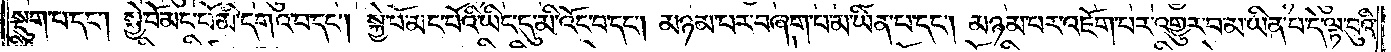སྡུག་པ་དང༌། སྐྱེ་བོ་མང་པོ་མི་དགའ་བ་དང༌། སྐྱེ་བོ་མང་པོའི་ཡིད་དུ་མི་འོང་བ་དང༌། མཉམ་པར་བཞག་པ་མ་ཡིན་པ་དང༌། མཉམ་པར་འཇོག་པར་འགྱུར་བ་མ་ཡིན་པ་དེ་ལྟ་བུའི་
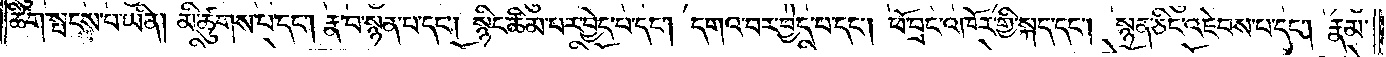ཚིག་སྤངས་པ་ཡིན། མི་ཚུགས་པ་དང༌། རྣ་བ་སྙན་པ་དང༌། སྙིང་ཚིམ་པར་བྱེད་པ་དང༌། དགའ་བར་བྱེད་པ་དང༌། ཕོ་བྲང་འཁོར་གྱི་སྐད་དང༌། སྙན་ཅིང་འཇེབས་པ་དང༌། རྣམ་
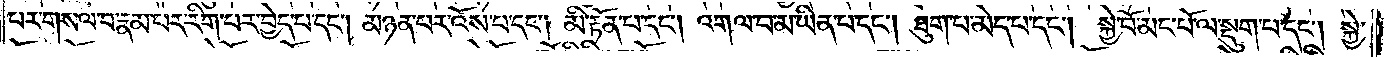པར་གསལ་བ་རྣམ་པར་རིག་པར་བྱེད་པ་དང༌། མཉན་པར་འོས་པ་དང༌། མི་རྟོན་པ་དང༌། འགལ་བ་མ་ཡིན་པ་དང༌། ཐུག་པ་མེད་པ་དང༌། སྐྱེ་བོ་མང་པོ་ལ་སྡུག་པ་དང༌། སྐྱེ་
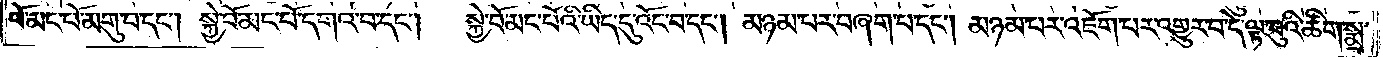བོ་མང་པོ་མགུ་པ་དང༌། སྐྱེ་བོ་མང་པོ་དགའ་བ་དང༌། སྐྱེ་བོ་མང་པོའི་ཡིད་དུ་འོང་བ་དང༌། མཉམ་པར་བཞག་པ་དང༌། མཉམ་པར་འཇོག་པར་འགྱུར་བ་དེ་ལྟ་བུའི་ཚིག་སྨྲ་
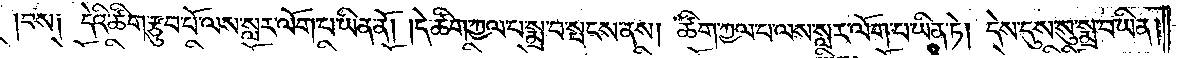བས༑ དེའི་ཚིག་རྩུབ་པོ་ལས་སླར་ལོག་པ་ཡིན་ནོ། །དེ་ཚིག་ཀྱལ་པ་སྨྲ་བ་སྤངས་ནས། ཚིག་ཀྱལ་པ་ལས་སླར་ལོག་པ་ཡིན་ཏེ། དེས་དུས་སུ་སྨྲ་བ་ཡིན།
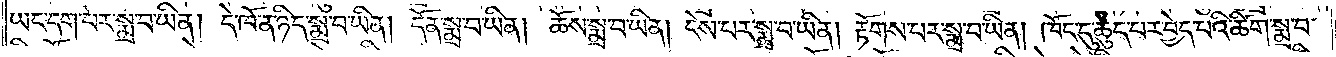ཡང་དག་པར་སྨྲ་བ་ཡིན། དེ་ཁོ་ན་ཉིད་སྨྲ་བ་ཡིན། དོན་སྨྲ་བ་ཡིན། ཆོས་སྨྲ་བ་ཡིན། ངེས་པར་སྨྲ་བ་ཡིན། རྟོགས་པར་སྨྲ་བ་ཡིན། ཁོང་དུ་ཆུད་པར་བྱེད་པའི་ཚིག་སྨྲ་བ་
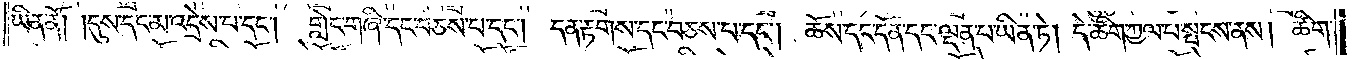ཡིན་ནོ། །དུས་དང་མ་འདྲེས་པ་དང༌། གླེང་གཞི་དང་བཅས་པ་དང༌། དན་རྟགས་དང་བཅས་པ་དང༌། ཆོས་དང་དོན་དང་ལྡན་པ་ཡིན་ཏེ། དེ་ཚིག་ཀྱལ་པ་སྤངས་ནས། ཚིག་
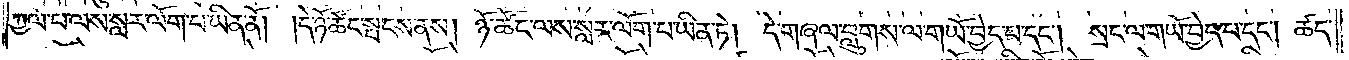ཀྱལ་པ་ལས་སླར་ལོག་པ་ཡིན་ནོ། །དེ་ཉོ་ཚོང་སྤངས་ནས། ཉོ་ཚོང་ལས་སླར་ལོག་པ་ཡིན་ཏེ། དེ་གཞལ་བླུགས་ལ་གཡོ་བྱེད་པ་དང༌། སྲང་ལ་གཡོ་བྱེད་པ་དང༌། ཚད་
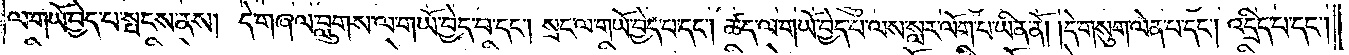ལ་གཡོ་བྱེད་པ་སྤངས་ནས། དེ་གཞལ་བླུགས་ལ་གཡོ་བྱེད་པ་དང༌། སྲང་ལ་གཡོ་བྱེད་པ་དང༌། ཚད་ལ་གཡོ་བྱེད་པ་ལས་སླར་ལོག་པ་ཡིན་ནོ། །དེ་གསུག་ལེན་པ་དང༌། འདྲིད་པ་དང༌།
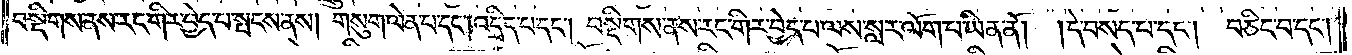བསྡིགས་ནས་རང་གིར་བྱེད་པ་སྤངས་ནས། གསུག་ལེན་པ་དང༌། འདྲིད་པ་དང༌། བསྡིགས་ནས་རང་གིར་བྱེད་པ་ལས་སླར་ལོག་པ་ཡིན་ནོ། །དེ་བསད་པ་དང༌། བཅིང་བ་དང༌།
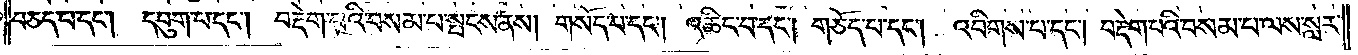བཅད་པ་དང༌། དབུག་པ་དང༌། བརྡེག་པའི་བསམ་པ་སྤངས་ནས། གསོད་པ་དང༌། འཆིང་བ་དང༌། གཅོད་པ་དང༌། འབིགས་པ་དང༌། བརྡེག་པའི་བསམ་པ་ལས་སླར་
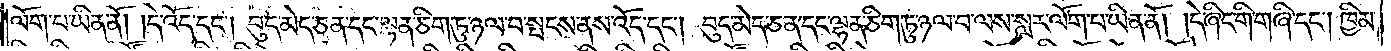ལོག་པ་ཡིན་ནོ། །དེ་འོད་དང༌། བུད་མེད་ཅན་དང་ལྷན་ཅིག་ཏུ་ཉལ་བ་སྤངས་ནས་འོད་དང༌། བུད་མེད་ཅན་དང་ལྷན་ཅིག་ཏུ་ཉལ་བ་ལས་སླར་ལོག་པ་ཡིན་ནོ། །དེ་ཞིང་གི་གཞི་དང༌། ཁྱིམ་
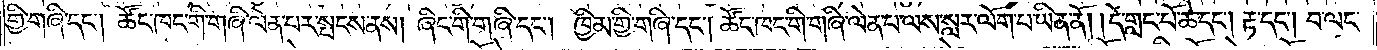གྱི་གཞི་དང༌། ཚོང་ཁང་གི་གཞི་ལེན་པར་སྤངས་ནས། ཞིང་གི་གཞི་དང༌། ཁྱིམ་གྱི་གཞི་དང༌། ཚོང་ཁང་གི་གཞི་ལེན་པ་ལས་སླར་ལོག་པ་ཡིན་ནོ། །དེ་གླང་པོ་ཆེ་དང༌། རྟ་དང༌། བ་ལང་
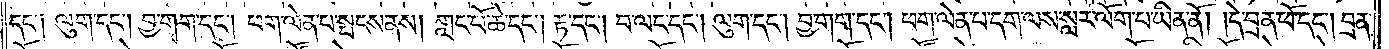དང་༑ ལུག་དང༌། བྱ་གག་དང༌། ཕག་ལེན་པ་སྤངས་ནས། གླང་པོ་ཆེ་དང༌། རྟ་དང༌། བ་ལང་དང༌། ལུག་དང༌། བྱ་གག་དང༌། ཕག་ལེན་པ་དག་ལས་སླར་ལོག་པ་ཡིན་ནོ། །དེ་བྲན་ཕོ་དང༌། བྲན་
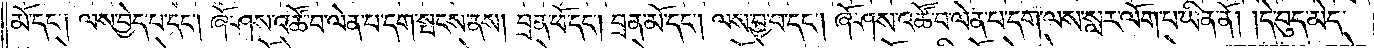མོ་དང༌། ལས་བྱེད་པ་དང༌། ཞོ་ཤས་འཚོ་བ་ལེན་པ་དག་སྤངས་ནས། བྲན་ཕོ་དང༌། བྲན་མོ་དང༌། ལས་བྱ་བ་དང༌། ཞོ་ཤས་འཚོ་བ་ལེན་པ་དག་ལས་སླར་ལོག་པ་ཡིན་ནོ། །དེ་བུད་མེད་
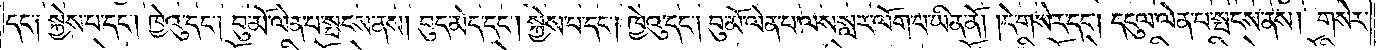དང་༑ སྐྱེས་པ་དང༌། ཁྱེའུ་དང༌། བུ་མོ་ལེན་པ་སྤངས་ནས། བུད་མེད་དང༌། སྐྱེས་པ་དང༌། ཁྱེའུ་དང༌། བུ་མོ་ལེན་པ་ལས་སླར་ལོག་པ་ཡིན་ནོ། །དེ་གསེར་དང༌། དངུལ་ལེན་པ་སྤངས་ནས། གསེར་
